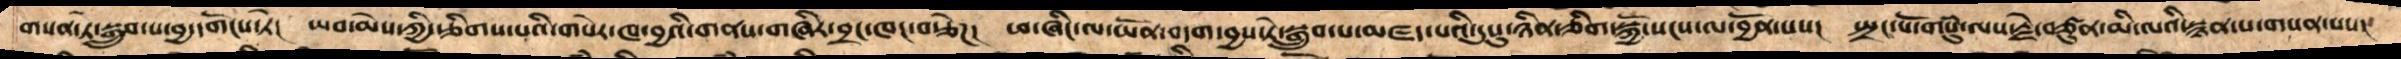གསན་ཏེ་སྒྲུབ་པ་བྱ་དགོངས་ཏེ།  ཡབ་མེས་ཀྱི་རྩིགས་པའི་གསེར་ཁ་བྱའི་གནས་གཞིར་བྲང་ཁང་བརྩེཌ། ཕ་ཞིང་ལ་ཡོན་བདག་བྱས་ཏེ་སྒྲུབ་པ་མཛད་པའི་དུསུ་ཉིན་ཅིག་སྐྱོ་སངས་ལ་བྱོན་པས།  སྤྲང་པོ་གསུཾ་ལས་རྗེ་བཙུན་མི་ལའི་སྙན་པ་གསན་པས།
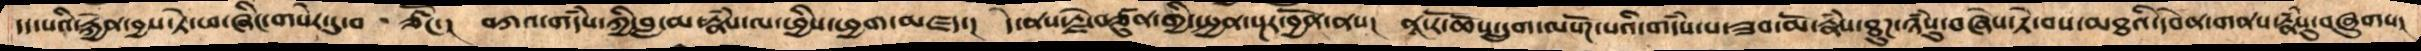དད་པའི་རྐྱེན་བྱས་ཏེ་ཕ་ཞིང་གསེར་དུ་བཙོང་།   བཀའ་གདཾས་ཀྱི་བླ་མ་རྣཾས་ལ་ཕྱིས་ཕྱག་མཛད།  དེ་ནས་རྗེ་བཙུན་གྱི་སྤྱན་སྔར་བྱོན་ནས།  ནཱ་རོ་ཆོས་དྲུག་ལསོཌ་པའི་གདཾས་པ་ཟབ་མོ་རྣཾས་ཐུཌ་ཉཾསུ་བཞེས་ཏེ་བས་མཐའི་དབེན་གནས་རྣཾསུ་བཞུགས།
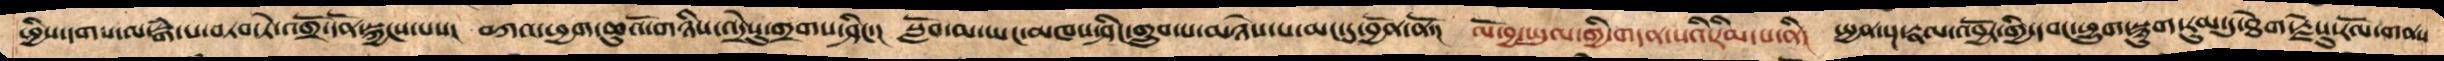ཕྱིས་དགས་ལ་སྒཾ་པ་བཏབ་ཏེ་འགྲོ་དོན་སྐྱངས་པས། བཀའ་ཕྱག་ཆུའོ་གཉིས་འདྲེསུ་གྲགས་ཤིང་།  སློབ་མ་ཡང་མཁས་ཤིང་གྲུབ་པ་མཉེས་པ་མང་དུ་བྱོན་ནོ།  ལོ་བྱ་ཡུལ་གྱི་གདན་སའི་རིམ་པ་ནི།  སྤྱན་སྔ་རྣལ་འབྱོར་གྱི་དབང་ཕྱུག་སྙུག་རུམ་དུ་ཐེག་རྗེསུ་རོལ་གནས་
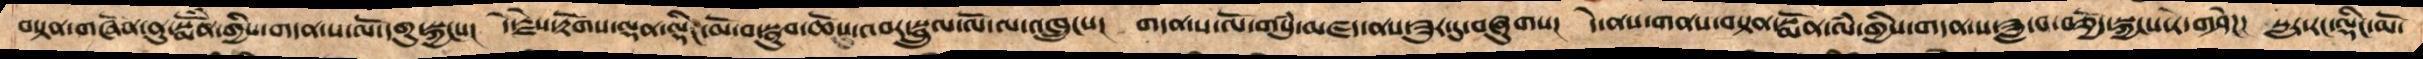བསྟན་གཞོན་ནུ་སྨོཾན་གྱིས་གདན་ས་ལོ་དགུ་སྐྱངས།   དེ་རྗེས་རྟོགས་ལྡན་ལྡིང་མོ་བ་སྣུབ་ཆོསུ་འབར་སྦྲུལ་ལོ་ལ་འཁྲུངས།  གདན་ས་ལོ་གསུཾ་མཛད་ནས་ཟུར་དུ་བཞུགས།   དེ་ནས་གནས་བསྟན་སྨོན་ལཾ་གྱིས་གདན་ས་ཟླ་བ་བཅྱོད་སྐྱངས་ཏེ་གཤེཌ། སླར་རང་ལྡིང་མོ་
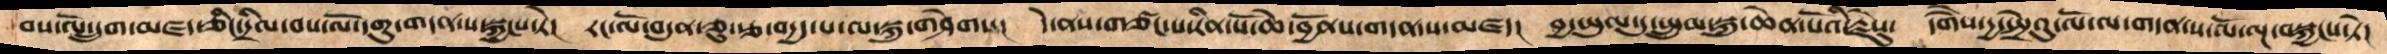བས་ལོ་དྲུག་མཛད་ཅིང་དྲིལ་བས་ལོ་དགུ་གདན་ས་སྐྱངས་ཏེ།  རང་ལོ་བདུན་ཅུ་རྩ་བདྱད་པ་ལ་སྐུ་གཤེགས།  དེ་ནས་གཙང་པ་རིན་པོ་ཆེ་བྱོནས་གདན་ས་མཛད།  བྱ་ཡུལ་དུ་སྤྲུལ་སྐུ་ཆེན་པོའི་རྗེསུ།  དགཻས་དྱ་སྤྲེའུ་ལོ་ལ་གདན་ས་ལོ་ལྔ་བསྐྱངས་ཏེ།
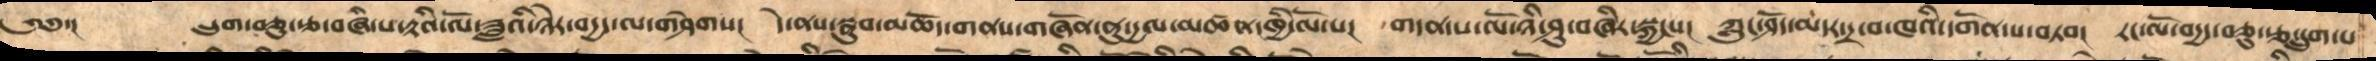༄༅་།     དྲུག་བཅུ་རྩ་བཞི་པ་རྟའི་ལོ་ཟླའི་ཉེར་བདྱད་ལ་གཤེགས།  དེ་ནས་སྣུབ་མཆོད་གནས་གཞོན་ནུ་དྱལ་མཚན་ཁྱི་ལོ་པ།  གདན་ས་ལོ་ཉི་ཤུ་བཞིར་སྐྱངས།   ཀླུང་ཤོད་མདར་དྲ་བ་ཁའི་དགོན་པ་བཏབ།  རང་ལོ་བདྱད་ཅུ་རྩ་དྲུག་པ་
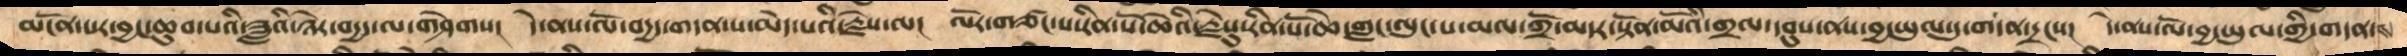མངོན་པར་བྱང་ཆུབ་པའི་ཟླའི་ཉེར་བདྱད་ལ་གཤེགས།  དེ་ནས་ལོ་བདྱད་གདན་ས་མེད་པའི་རྗེས་ལ།  ལོར་གཙང་པ་རིན་པོ་ཆེའི་རྗེསུ་རིན་པོ་ཆེ་གླང་ལུང་པ་མལ་གྲོ་མདར་སྟོན་མོའི་གྲལ་དབུས་ནས་བྱ་ཡུལ་དུ་གདན་དྲངས།  དེ་ནས་ལོ་བྱ་ཡུལ་གྱི་གདན་ས་
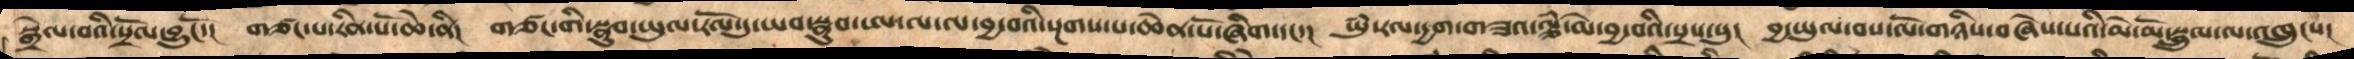སྒྲེལ་བའི་སྲོལ་བྱུངོ་།   གཙང་པ་རིན་པོ་ཆེ་ནི།  གཙང་གི་སྣུབ་ཡུལ་རོལ་དུ་ཡབ་སྣུབ་ཨ་ལ་ལ་བྱ་བའི་སྔགས་པ་ཆེན་པོ་ཞིག་དང་།  ཡུཾ་རལ་དྱག་གཟའ་ལྕཾ་མེ་བྱ་བའི་སྲས་སུ།  བྱ་ཡུལ་བས་ལོ་གཉིས་བཞེས་པའི་མེ་མོ་སྦྲུལ་ལ་འཁྲུངས།
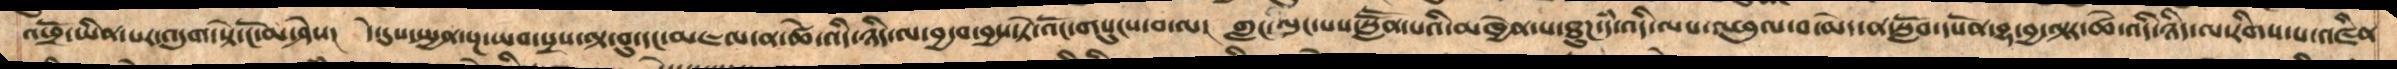འཕྲོ་ཡིན་པར་འདུག་སྟེ་ངོ་མ་ཤེས།   དེ་དུས་སྤྱན་སྔ་ཡབ་སྲས་ལྟ་བུ་དང་མཇལ་ན་ཚེ་འདི་ཉིད་ལ་བྱ་བ་བྱས་ཏེ་འོང་གསུངས་བ་ལ།   གླང་ལུང་པས་སླཽན་པའི་མཁྱེན་པ་ཐུཌ་དཾ་འདི་ལས་འཕུལ་བ་མེད་ན་སློབ་དཔོན་བྷ་བྱ་ལྟར་ཚེ་འདི་ཉིད་ལ་རིགས་པ་འཛིན་
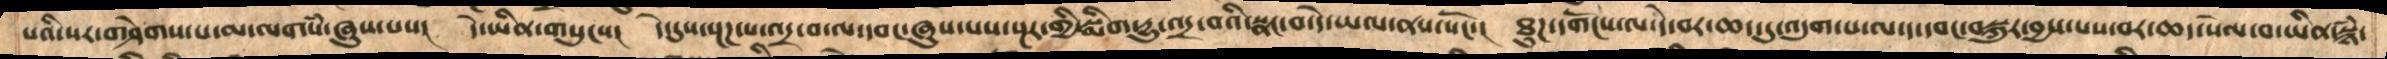པའི་སར་གཤེགས་པ་མ་ལགསཾ་ཞུས་པས།  དེ་ཡིན་གསུངས།   དེ་དུས་སྔཌ་པ་འདྲ་བ་ལ་དབང་ཞུས་པས་སྔར་གྱི་སྨིག་དྱུ་འདྲ་བའི་སྣང་བ་དེ་ཡལ་ནས་སོང་།   ཐུཌ་དགོངས་ལ་དེ་བར་ཆད་དུ་འདུག་པ་ལ་ད་དབང་བསྐུར་བྱས་པས་བར་ཆད་སེལ་བ་ཡིན་སྙཾ་
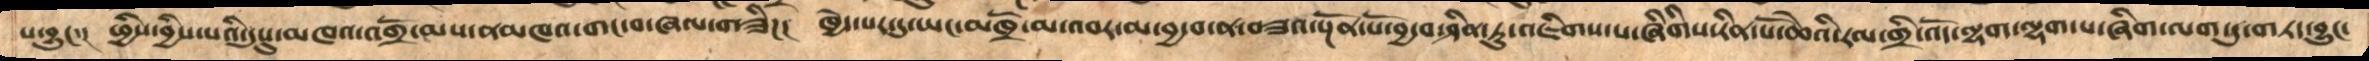པ་བྱུང་།  ཕྱིས་བྱིས་པའི་དུསུ་མཁའ་འགྲོ་མས་ནམཁའ་གང་བ་ཞལ་གཟིཌ།  ཁྱེད་པར་དུ་ཡང་མཁྲོ་མ་འབར་མ་བྱ་བ་ན་བཟའ་སྔོན་པོ་བྱ་བ་ཤིན་ཏུ་འཇིགས་པ་ཞིགིས་རིན་པོ་ཆེའི་རལ་གྲི་འོད་ལྷག་ལྷག་པ་ཞིག་ལག་དུ་གཏད་བྱུང་
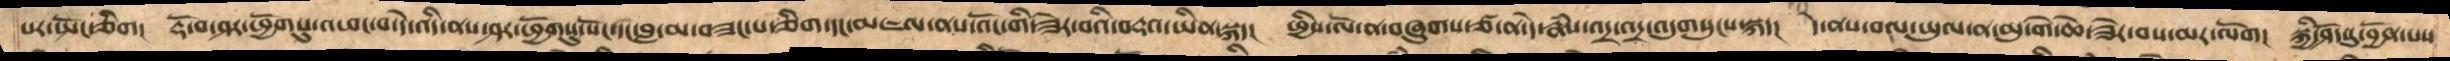པར་སྤོང་ཤིག།   རྡོ་བ་ཤརཕྱོགསུ་འཕང་བ་དེ་འདི་ནས་ཤར་ཕྱོགསུ་སོང་དང་བླ་མ་བཟང་པ་ཅིག་དང་མཇལ་ནས་འོང་གི་ཟེར་བའི་བརྡའ་ཡིན་སྐད།  ཕྱིས་ལོ་ན་བཞུགས་ཙ་ན་དེ་རྣཾས་འདྲ་འདྲ་འདུགསུངསསྐད། དེ་ནས་བལ་ཡུལ་ན་མུ་གེ་ཆེ་ཟེར་བས་མར་ལོག།  སྐྱི་ཤོད་དུ་བྱོན་པས་
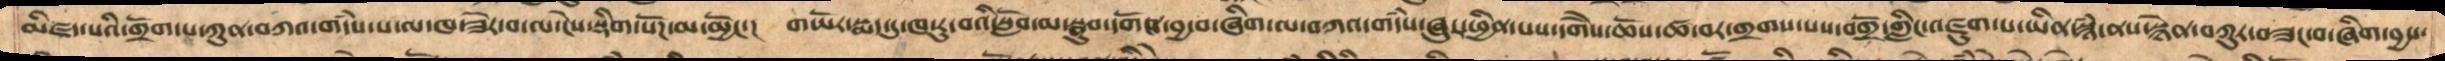མིཛད་པའི་གྲོག་པ་ཀུན་བཀའ་གདཾས་པ་ལ་ཁ་ཟེར་བ་ལ་ངེས་སྡིག་སོཌ་མ་མྱོང་། གཡོར་སྨད་དུ་ཁ་རུ་བའི་སློབ་མ་སྣུབ་དགོན་བྱ་བ་ཞིག་ལ་བཀའ་གདཾས་ཞུར་ཕྱིན་པས་དགཻས་ཆོས་ཚ་བར་གྲགས་པས་བགྲོ་གླིང་འཛུག་པ་ཡིན་སྙཾ་ནས་སྙེན་བཀུར་བཟང་བ་ཞིག་བྱས་
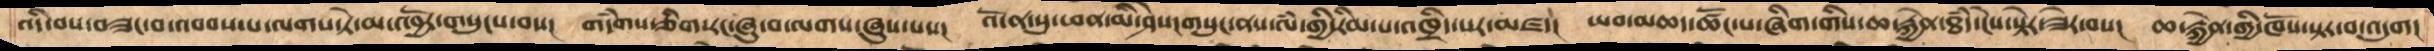འདི་བས་བཟང་བ་འབབས་པ་ལགས་ཏེ་མ་འབྱོར་གསུངས་བས།  གདཾགས་ཅིག་རང་ཞུ་བ་ལེགས་ཞུས་པས།   འོ་ན་སུ་ཕན་མི་ཤེས་གསུང་ནས་ལཾ་གྱི་རིམ་པ་འཁྲིད་པར་མཛད།  ཡབ་མཆད་ཚོང་པ་ཞིག་གིས་ཆ་རྐྱེན་ཐཾད་ངེས་སྟེར་ཟེར་ནས།  ཆ་རྐྱེན་གྱི་ཁོས་སྟར་བ་འདུག།
